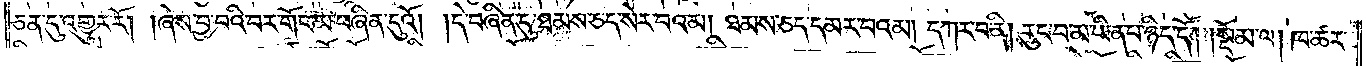ཅན་དུ་འགྱུར་རོ། །ཞེས་བྱ་བའི་བར་གོང་མ་བཞིན་དུའོ། །དེ་བཞིན་དུ་ཐམས་ཅད་སེར་བའམ། ཐམས་ཅད་དམར་བའམ། དཀར་བ་ནི། རུང་བ་མ་ཡིན་པ་ཉིད་དོ།    །སྡོམ་ལ། ཁ་ཚར་
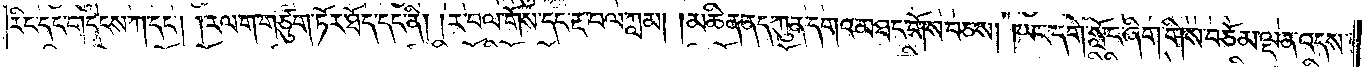རིང་དང་གདེངས་ཀ་དང༌། །རལ་ག་གཙུག་ཏོར་ཐོད་དང་ནི། །ར་བལ་གོས་དང་རྡ་བལ་ཀླམ། །མཆིན་ནད་ཀུན་དགའ་མཐང་གོས་བཅས། །ཡང་དགེ་སློང་ཞིག་གིས་བཅོམ་ལྡན་འདས་
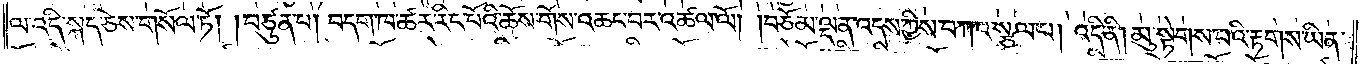ལ་འདི་སྐད་ཅེས་གསོལ་ཏོ། །བཙུན་པ། བདག་ཁ་ཚར་རིང་པོའི་ཆོས་གོས་འཆང་བར་འཚལ་ལོ། །བཅོམ་ལྡན་འདས་ཀྱིས་བཀའ་སྩལ་པ། འདི་ནི། མུ་སྟེགས་པའི་རྟགས་ཡིན་
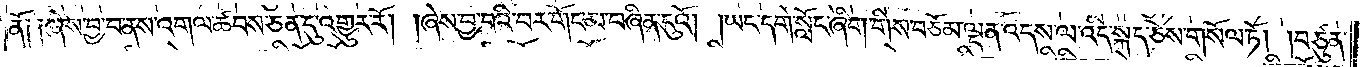ནོ༑ ༑ཞེས་བྱ་བ་ནས་འགལ་ཚབས་ཅན་དུ་འགྱུར་རོ། །ཞེས་བྱ་བའི་བར་གོང་མ་བཞིན་དུའོ། །ཡང་དགེ་སློང་ཞིག་གིས་བཅོམ་ལྡན་འདས་ལ་འདི་སྐད་ཅེས་གསོལ་ཏོ། །བཙུན་
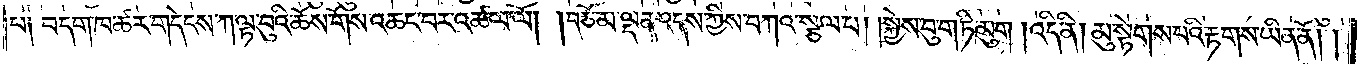པ༑ བདག་ཁ་ཚར་གདེངས་ཀ་ལྟ་བུའི་ཆོས་གོས་འཆང་བར་འཚལ་ལོ། །བཅོམ་ལྡན་འདས་ཀྱིས་བཀའ་སྩལ་པ། །སྐྱེས་བུ་གཏི་མུག །འདི་ནི། མུ་སྟེགས་པའི་རྟགས་ཡིན་ནོ། །
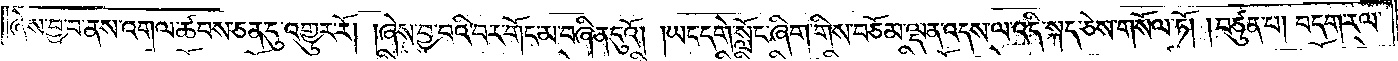ཞེས་བྱ་བ་ནས་འགལ་ཚབས་ཅན་དུ་འགྱུར་རོ། །ཞེས་བྱ་བའི་བར་གོང་མ་བཞིན་དུའོ། །ཡང་དགེ་སློང་ཞིག་གིས་བཅོམ་ལྡན་འདས་ལ་འདི་སྐད་ཅེས་གསོལ་ཏོ། །བཙུན་པ། བདག་རལ་
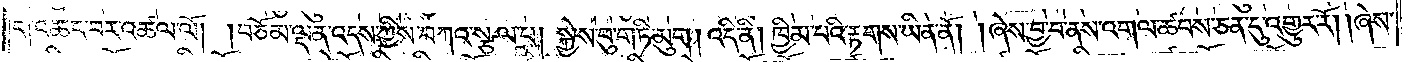ག་འཆང་བར་འཚལ་ལོ། །བཅོམ་ལྡན་འདས་ཀྱིས་བཀའ་སྩལ་པ། སྐྱེས་བུ་གཏི་མུག །འདི་ནི། ཁྱིམ་པའི་རྟགས་ཡིན་ནོ། །ཞེས་བྱ་བ་ནས་འགལ་ཚབས་ཅན་དུ་འགྱུར་རོ། །ཞེས་
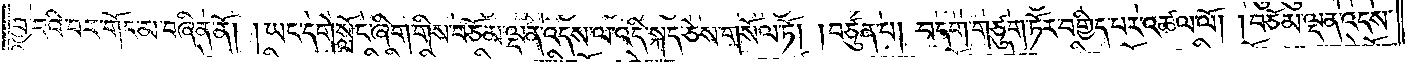བྱ་བའི་བར་གོང་མ་བཞིན་ནོ། །ཡང་དགེ་སློང་ཞིག་གིས་བཅོམ་ལྡན་འདས་ལ་འདི་སྐད་ཅེས་གསོལ་ཏོ། །བཙུན་པ། བདག་གཙུག་ཏོར་བགྱིད་པར་འཚལ་ལོ། །བཅོམ་ལྡན་འདས་
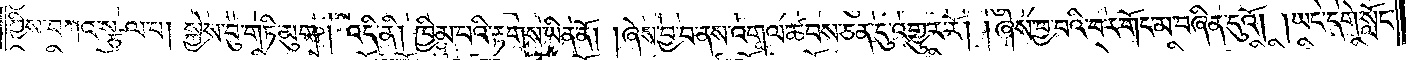ཀྱིས་བཀའ་སྩལ་པ། སྐྱེས་བུ་གཏི་མུག །འདི་ནི། ཁྱིམ་པའི་རྟགས་ཡིན་ནོ། །ཞེས་བྱ་བ་ནས་འགལ་ཚབས་ཅན་དུ་འགྱུར་རོ། །ཞེས་བྱ་བའི་བར་གོང་མ་བཞིན་དུའོ། །ཡང་དགེ་སློང་
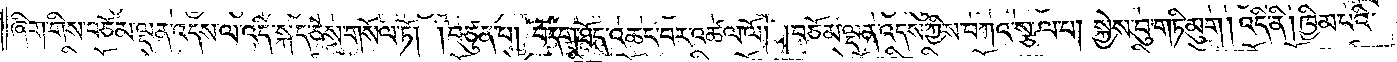ཞིག་གིས་བཅོམ་ལྡན་འདས་ལ་འདི་སྐད་ཅེས་གསོལ་ཏོ། །བཙུན་པ། བདག་ཐོད་འཆང་བར་འཚལ་ལོ། །བཅོམ་ལྡན་འདས་ཀྱིས་བཀའ་སྩལ་པ། སྐྱེས་བུ་གཏི་མུག །འདི་ནི། ཁྱིམ་པའི་
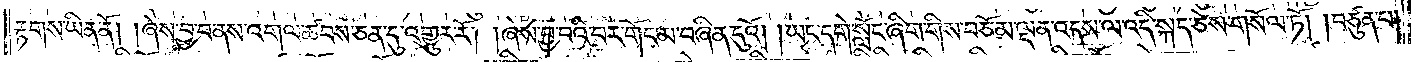རྟགས་ཡིན་ནོ། །ཞེས་བྱ་བ་ནས་འགལ་ཚབས་ཅན་དུ་འགྱུར་རོ། །ཞེས་བྱ་བའི་བར་གོང་མ་བཞིན་དུའོ། །ཡང་དགེ་སློང་ཞིག་གིས་བཅོམ་ལྡན་འདས་ལ་འདི་སྐད་ཅེས་གསོལ་ཏོ། །བཙུན་པ།
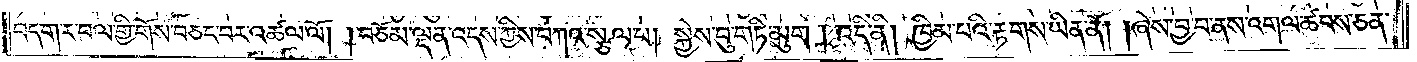བདག་ར་བལ་གྱི་གོས་བཅང་བར་འཚལ་ལོ། །བཅོམ་ལྡན་འདས་ཀྱིས་བཀའ་སྩལ་པ། སྐྱེས་བུ་གཏི་མུག །འདི་ནི། ཁྱིམ་པའི་རྟགས་ཡིན་ནོ། །ཞེས་བྱ་བ་ནས་འགལ་ཚབས་ཅན་
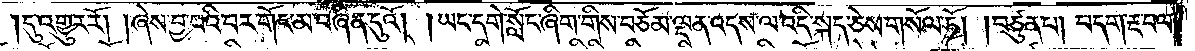དུ་འགྱུར་རོ། །ཞེས་བྱ་བའི་བར་གོང་མ་བཞིན་དུའོ། །ཡང་དགེ་སློང་ཞིག་གིས་བཅོམ་ལྡན་འདས་ལ་འདི་སྐད་ཅེས་གསོལ་ཏོ། །བཙུན་པ། བདག་རྔ་བལ་
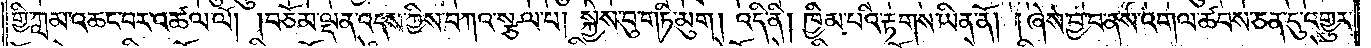གྱི་ཀླམ་འཆང་བར་འཚལ་ལོ། །བཅོམ་ལྡན་འདས་ཀྱིས་བཀའ་སྩལ་པ། སྐྱེས་བུ་གཏི་མུག །འདི་ནི། ཁྱིམ་པའི་རྟགས་ཡིན་ནོ། །ཞེས་བྱ་བ་ནས་འགལ་ཚབས་ཅན་དུ་འགྱུར་
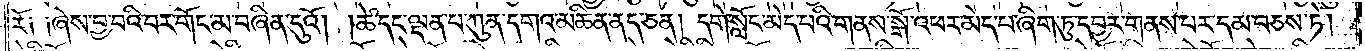རོ༑ ༑ཞེས་བྱ་བའི་བར་གོང་མ་བཞིན་དུའོ། །ཚེ་དང་ལྡན་པ་ཀུན་དགའ་མཆིན་ནད་ཅན། དགེ་སློང་མེད་པའི་གནས་སྒོ་འཕར་མེད་པ་ཞིག་ཏུ་དབྱར་གནས་པར་དམ་བཅས་ཏེ།
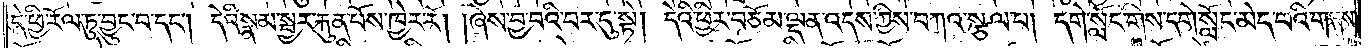དེ་ཕྱི་རོལ་ཏུ་བྱུང་བ་དང༌། དེའི་སྣམ་སྦྱར་རྐུན་པོས་ཁྱེར་རོ། །ཞེས་བྱ་བའི་བར་དུ་སྟེ། དེའི་ཕྱིར་བཅོམ་ལྡན་འདས་ཀྱིས་བཀའ་སྩལ་པ། དགེ་སློང་གིས་དགེ་སློང་མེད་པའི་གནས་
